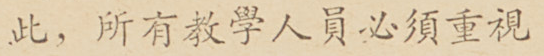此，所有教學人員必須重視
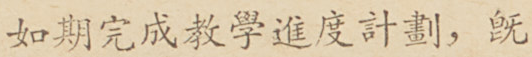如期完成教學進度計劃，旣
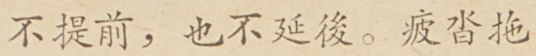不提前，也不延後。疲沓拖
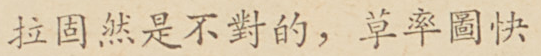拉固然是不對的，草率圖快
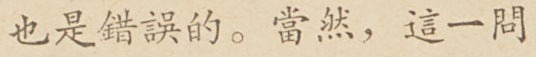也是錯誤的。當然，這一問
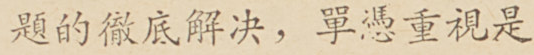題的徹底解決，單憑重視是
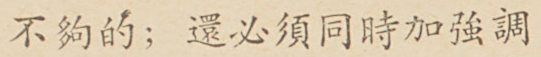不夠的；還必須同時加強調
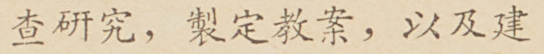查研究，制訂教案，以及建
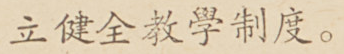立健全教學制度。
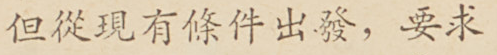但從現在條件出發，要求
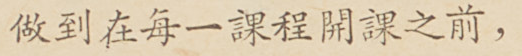做到在每一課程開課之前，
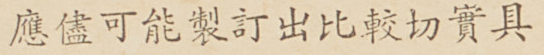應儘可能製定出比較切實具
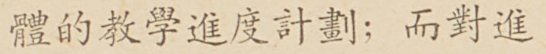體的教學進度計劃；而對進
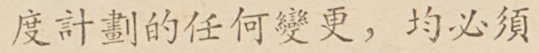度計劃的任何變更，均必須
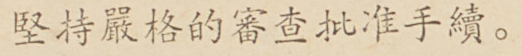堅持嚴格的審查批准手續。
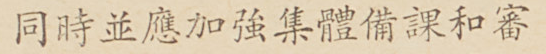同時並應加強集體備課和審
